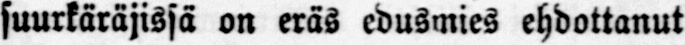suurkäräjissä on eräs edusmies ehdottanut
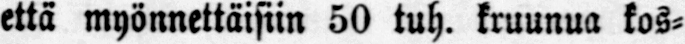että myönnettäisiin 50 tuh. kruunua kos-
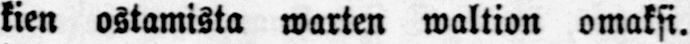kien ostamista warten waltion omaksi.
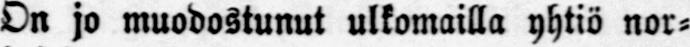On jo muodostunut ulkomailla yhtiö nor-
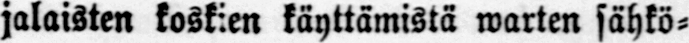jalaisten koskien käyttämistä warten sähkö-
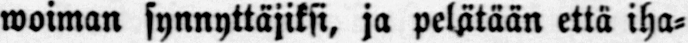woiman synnyttäjiksi, ja pelätään että iha-
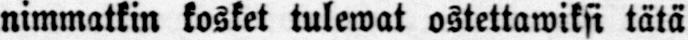nimmatkin kosket tulewat ostettawiksi tätä
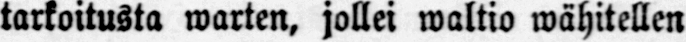tarkoitusta warten, jollei waltio wähitellen
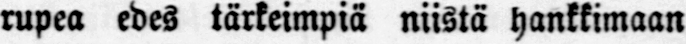rupea edes tärkeimpiä niistä hankkimaan
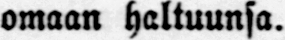omaan haltuunsa.
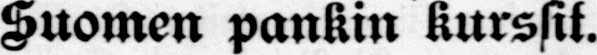Suomen pankin kurssit.
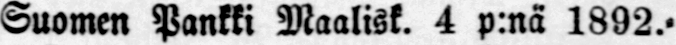Suomen Pankki Maalisk. 4 p:nä 1892.
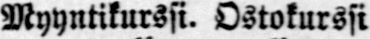Myyntikurssi. Ostokurssi
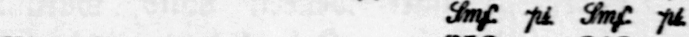Imp pä Imp pä
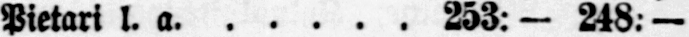Pietari l. a 253: — 248: —
